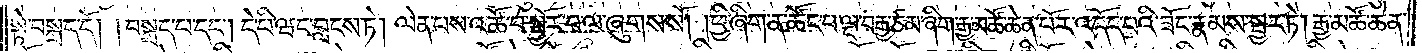སྟེ་བསྐྲད་དོ། །བསྐྲད་པ་དང༌། དེ་པི་ཝང་བླངས་ཏེ། ལེན་པས་འཚོ་བ་སྦྱོར་བ་ལ་ཞུགས་སོ། །ཕྱི་ཞིག་ན་ཚོང་པ་ལྔ་བརྒྱ་རྩམ་ཞིག་རྒྱ་མཚོ་ཆེན་པོར་འདོད་པའི་ཟོང་རྣམས་སྦྱར་ཏེ། རྒྱ་མཚོ་ཆེན་
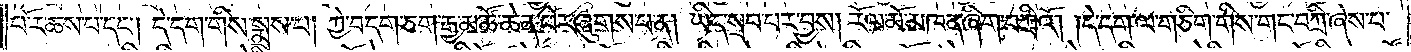པོར་ཆས་པ་དང༌། དེ་དག་གིས་སྨྲས་པ། ཀྱེ་བདག་ཅག་རྒྱ་མཚོ་ཆེན་པོར་ཞུགས་པ་ན། ཡིད་སྲབ་པར་བྱས། རོལ་མོ་མཁན་ཞིག་བཀྲིའོ། །དེ་དག་ལ་གཅིག་གིས་གང་བཀྲི་ཞེས་པ་
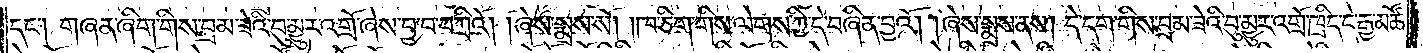དང༌། གཞན་ཞིག་གིས་བྲམ་ཟེའི་བུ་མྱུར་འགྲོ་ཞེས་བྱ་བ་བཀྲིའོ། །ཞེས་སྨྲས་སོ། །ཁ་ཅིག་གིས་ལེགས་ཀྱི་དེ་བཞིན་བྱའོ། །ཞེས་སྨྲས་ནས། དེ་དག་གིས་བྲམ་ཟེའི་བུ་མྱུར་འགྲོ་ཁྲིད་དེ་རྒྱ་མཚོ་
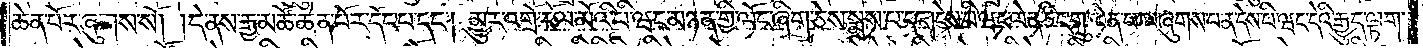ཆེན་པོར་ཞུགས་སོ། །དེ་ནས་རྒྱ་མཚོ་ཆེན་པོར་དོང་པ་དང༌། མྱུར་འགྲོ་རོལ་མོའི་པི་ཝང་མཉན་གྱི་ལོང་ཞིག་ཅེས་སྨྲས་པ་དང༌། དེས་པི་ཝང་ལེན་ཅིང་གླུ་ལེན་པ་ལ་ཞུགས་པ་ན་དེས་པི་ཝང་དེའི་རྒྱུད་ལྟག་
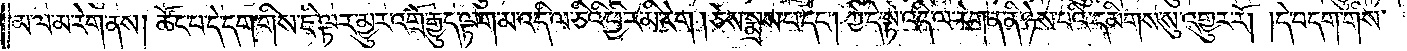མ་ལ་མ་རེག་ནས། ཚོང་པ་དེ་དག་གིས་ཇི་ལྟར་མྱུར་འགྲོ་རྒྱུད་ལྟག་མ་འདི་ལ་ཅིའི་ཕྱིར་མི་རེག །ཅེས་སྨྲས་པ་དང༌། ཀྱེ་དེ་སྟེ་འདི་ལ་རེག་ན་ནི་ཉེས་པའི་དམིགས་སུ་འགྱུར་རོ། །དེ་བདག་གིས་
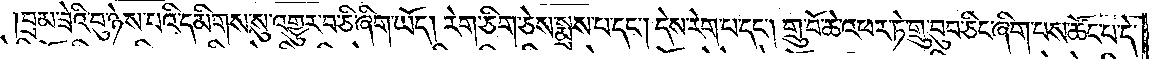བྲམ་ཟེའི་བུ་ཉེས་པའི་དམིགས་སུ་འགྱུར་བ་ཅི་ཞིག་ཡོད། རེག་ཅིག་ཅེས་སྨྲས་པ་དང༌། དེས་རེག་པ་དང༌། གྲུ་བོ་ཆེ་འཕར་ཏེ་གྲུ་བུབ་ཅིང་ཞིག་པས་ཚོང་པ་དེ་
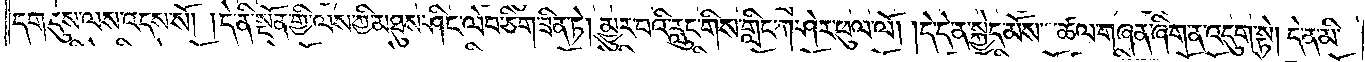དག་དུས་ལས་འདས་སོ། །དེ་ནི་སྔོན་གྱི་ལས་ཀྱི་མཐུས་ཤིང་ལེབ་ཅིག་ཟིན་ཏེ། མྱུར་བའི་རླུང་གིས་གླིང་ཀ་ཤེར་ཕུལ་ལོ། །དེ་དེ་ན་སྐྱེད་མོས་ཚལ་གཞན་ཞིག་ན་འདུག་སྟེ། དེ་ན་མི་
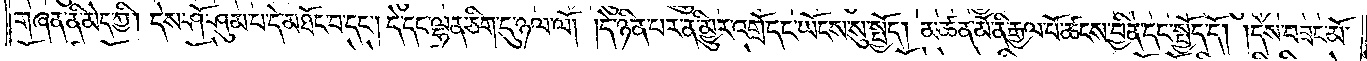གཞན་ནི་མེད་ཀྱི། དེས་ཤོ་ཤུམ་པ་དེ་མཐོང་བ་དང༌། དེ་དང་ལྷན་ཅིག་དུ་ཉལ་ལོ། །དེ་ཉིན་པར་ནི་མྱུར་འགྲོ་དང་ཡོངས་སུ་སྤྱོད། མཚན་མོ་ནི་རྒྱལ་པོ་ཚངས་བྱིན་དང་སྤྱོད་དོ། །དེས་བཟང་མོ་
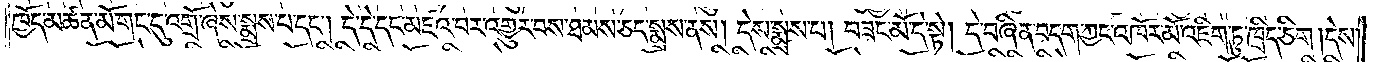ཁྱོད་མཚན་མོ་གང་དུ་འགྲོ་ཞེས་སྨྲས་པ་དང༌། དེ་དེ་དང་མཛའ་བར་འགྱུར་བས་ཐམས་ཅད་སྨྲས་ནས། དེས་སྨྲས་པ། བཟང་མོ་དེ་སྟེ། དེ་བཞིན་བདག་ཀྱང་འཁོར་མོ་འཇིག་ཏུ་ཁྲིད་ཅིག །དེས་
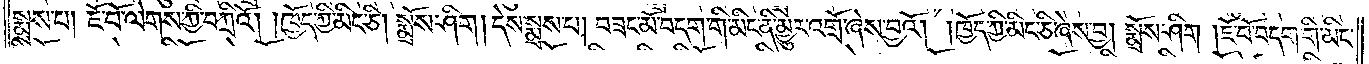སྨྲས་པ། ཇོ་བོ་ལེགས་ཀྱི་བཀྲིའོ། །ཁྱོད་ཀྱི་མིང་ཅི། སྨྲོས་ཤིག །དེས་སྨྲས་པ། བཟང་མོ་བདག་གི་མིང་ནི་མྱུར་འགྲོ་ཞེས་བྱའོ། །ཁྱོད་ཀྱི་མིང་ཅི་ཞེས་བྱ། སྨྲོས་ཤིག །ཇོ་བོ་བདག་གི་མིང་
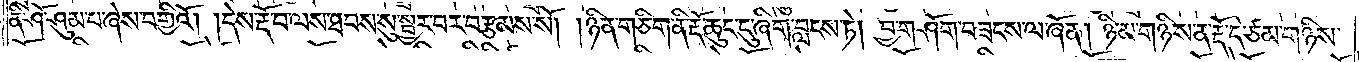ནི་ཤོ་ཤུམ་པ་ཞེས་བགྱིའོ། །དེས་རྡོ་བ་ལས་ཐབས་སུ་སྦྱར་བར་བརྩམས་སོ། །ཉིན་གཅིག་ནི་རྡོ་ཆུང་ངུ་ཞིག་བླངས་ཏེ། བྱ་གཤོག་བཟངས་ལ་ཞོན། ཉི་མ་གཉིས་ན་རྡོ་དེ་ཙམ་གཉིས་
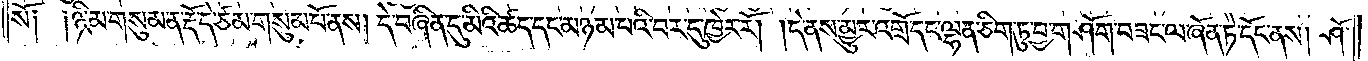སོ༑ ༑ཉི་མ་གསུམ་ན་རྡོ་དེ་ཙམ་གསུམ་པོ་ནས། དེ་བཞིན་དུ་མིའི་ཚད་དང་མཉམ་པའི་བར་དུ་ཁྱེར་རོ། །དེ་ནས་མྱུར་འགྲོ་དང་ལྷན་ཅིག་ཏུ་བྱ་གཤོག་བཟང་ལ་ཞོན་ཏེ་དོང་ནས། ཤོ་
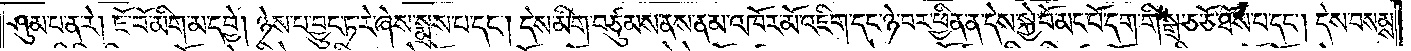ཤུམ་པ་ན་རེ། ཇོ་བོ་མིག་མ་དབྱེ། ཉེས་པ་བྱུང་ཏ་རེ་ཞེས་སྨྲས་པ་དང༌། དེས་མིག་བཙུམས་ནས་ནམ་འཁོར་མོ་འཇིག་དང་ཉེ་བར་ཕྱིན་ན་དེས་སྐྱེ་བོ་མང་པོ་དག་གི་སྒྲ་ཅ་ཅོ་ཐོས་པ་དང༌། དེས་བསམས་
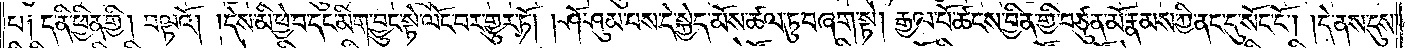པ༑ ད་ནི་ཕྱིན་གྱི། བལྟའོ། །དེས་མི་ཕྱེ་བ་དང་མིག་བྱུང་སྟེ་ལོང་བར་གྱུར་ཏོ། །ཤོ་ཤུམ་པས་དེ་སྐྱེད་མོས་ཚལ་ཏུ་བཞག་སྟེ། རྒྱལ་པོ་ཚངས་བྱིན་གྱི་བཙུན་མོ་རྣམས་ཀྱི་ནང་དུ་སོང་ངོ༌། །དེ་ནས་དུས་
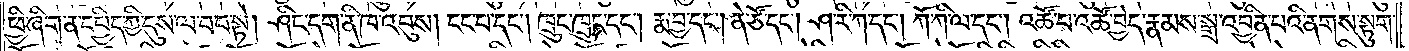ཕྱི་ཞིག་ན་དཔྱིད་ཀྱི་དུས་ལ་བབ་སྟེ། ཤིང་དག་ནི་ཁ་འབུས། ངང་པ་དང༌། ཁྲུང་ཁྲུང་དང༌། རྨ་བྱ་དང༌། ནེ་ཙོ་དང༌། ཤ་རི་ཀ་དང༌། ཀོ་ཀི་ལ་དང༌། འཚོ་བ་འཚོ་བྱེད་རྣམས་སྒྲ་འབྱིན་པའི་ནགས་སྟུག་
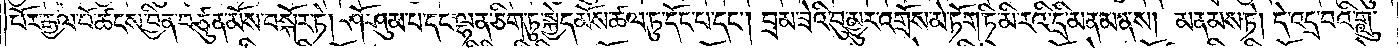པོར་རྒྱལ་པོ་ཚངས་བྱིན་བཙུན་མོས་བསྐོར་ཏེ། ཤོ་ཤུམ་པ་དང་ལྷན་ཅིག་ཏུ་སྐྱེད་མོས་ཚལ་ཏུ་དོང་པ་དང༌། བྲམ་ཟེའི་བུ་མྱུར་འགྲོས་མེ་ཏོག་ཏི་མི་རའི་དྲི་མནམ་ནས། མནམས་ཏེ། དེ་འདྲ་བའི་གླུ་
